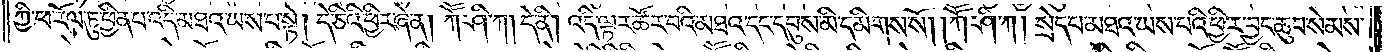ཀྱི་ཕ་རོལ་ཏུ་ཕྱིན་པ་འདི་མཐའ་ཡས་པ་སྟེ། དེ་ཅིའི་ཕྱིར་ཞེ་ན། ཀཽ་ཤི་ཀ། དེ་ནི། འདི་ལྟར་ཚོར་བའི་མཐའ་དང་དབུས་མི་དམིགས་སོ། །ཀཽ་ཤི་ཀ། སྲེད་པ་མཐའ་ཡས་པའི་ཕྱིར་བྱང་ཆུབ་སེམས་
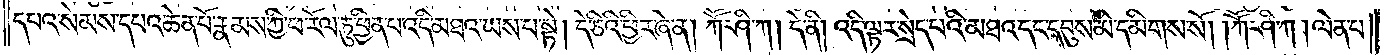དཔའ་སེམས་དཔའ་ཆེན་པོ་རྣམས་ཀྱི་ཕ་རོལ་ཏུ་ཕྱིན་པ་འདི་མཐའ་ཡས་པ་སྟེ། དེ་ཅིའི་ཕྱིར་ཞེ་ན། ཀཽ་ཤི་ཀ། དེ་ནི། འདི་ལྟར་སྲེད་པའི་མཐའ་དང་དབུས་མི་དམིགས་སོ། །ཀཽ་ཤི་ཀ། ལེན་པ་
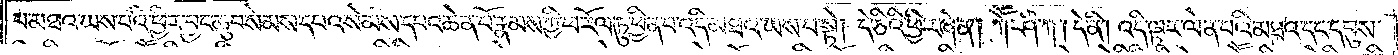པ་མཐའ་ཡས་པའི་ཕྱིར་བྱང་ཆུབ་སེམས་དཔའ་སེམས་དཔའ་ཆེན་པོ་རྣམས་ཀྱི་ཕ་རོལ་ཏུ་ཕྱིན་པ་འདི་མཐའ་ཡས་པ་སྟེ། དེ་ཅིའི་ཕྱིར་ཞེ་ན། ཀཽ་ཤི་ཀ། དེ་ནི། འདི་ལྟར་ལེན་པའི་མཐའ་དང་དབུས་
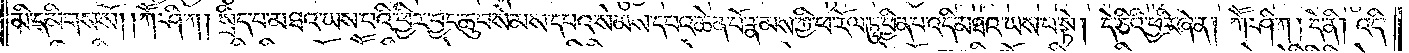མི་དམིགས་སོ། །ཀཽ་ཤི་ཀ། སྲིད་པ་མཐའ་ཡས་པའི་ཕྱིར་བྱང་ཆུབ་སེམས་དཔའ་སེམས་དཔའ་ཆེན་པོ་རྣམས་ཀྱི་ཕ་རོལ་ཏུ་ཕྱིན་པ་འདི་མཐའ་ཡས་པ་སྟེ། དེ་ཅིའི་ཕྱིར་ཞེ་ན། ཀཽ་ཤི་ཀ། དེ་ནི། འདི་
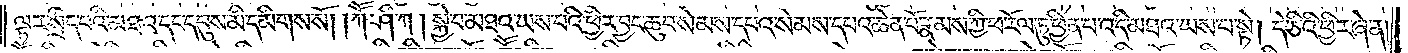ལྟར་སྲིད་པའི་མཐའ་དང་དབུས་མི་དམིགས་སོ། །ཀཽ་ཤི་ཀ། སྐྱེ་བ་མཐའ་ཡས་པའི་ཕྱིར་བྱང་ཆུབ་སེམས་དཔའ་སེམས་དཔའ་ཆེན་པོ་རྣམས་ཀྱི་ཕ་རོལ་ཏུ་ཕྱིན་པ་འདི་མཐའ་ཡས་པ་སྟེ། དེ་ཅིའི་ཕྱིར་ཞེ་ན།
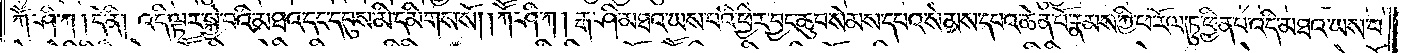ཀཽ་ཤི་ཀ། དེ་ནི། འདི་ལྟར་སྐྱེ་བའི་མཐའ་དང་དབུས་མི་དམིགས་སོ། །ཀཽ་ཤི་ཀ། རྒ་ཤི་མཐའ་ཡས་པའི་ཕྱིར་བྱང་ཆུབ་སེམས་དཔའ་སེམས་དཔའ་ཆེན་པོ་རྣམས་ཀྱི་ཕ་རོལ་ཏུ་ཕྱིན་པ་འདི་མཐའ་ཡས་པ་
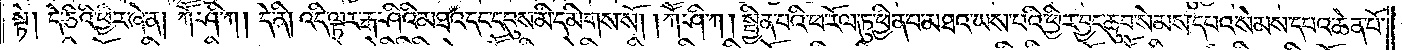སྟེ། དེ་ཅིའི་ཕྱིར་ཞེ་ན། ཀཽ་ཤི་ཀ། དེ་ནི། འདི་ལྟར་རྒ་ཤིའི་མཐའ་དང་དབུས་མི་དམིགས་སོ། །ཀཽ་ཤི་ཀ། སྦྱིན་པའི་ཕ་རོལ་ཏུ་ཕྱིན་པ་མཐའ་ཡས་པའི་ཕྱིར་བྱང་ཆུབ་སེམས་དཔའ་སེམས་དཔའ་ཆེན་པོ་
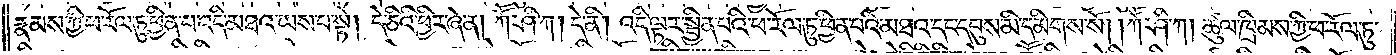རྣམས་ཀྱི་ཕ་རོལ་ཏུ་ཕྱིན་པ་འདི་མཐའ་ཡས་པ་སྟེ། དེ་ཅིའི་ཕྱིར་ཞེ་ན། ཀཽ་ཤི་ཀ། དེ་ནི། འདི་ལྟར་སྦྱིན་པའི་ཕ་རོལ་ཏུ་ཕྱིན་པའི་མཐའ་དང་དབུས་མི་དམིགས་སོ། །ཀཽ་ཤི་ཀ། ཚུལ་ཁྲིམས་ཀྱི་ཕ་རོལ་ཏུ་
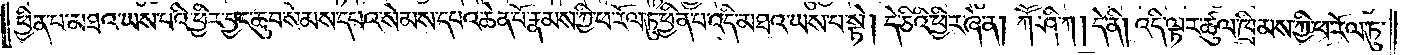ཕྱིན་པ་མཐའ་ཡས་པའི་ཕྱིར་བྱང་ཆུབ་སེམས་དཔའ་སེམས་དཔའ་ཆེན་པོ་རྣམས་ཀྱི་ཕ་རོལ་ཏུ་ཕྱིན་པ་འདི་མཐའ་ཡས་པ་སྟེ། དེ་ཅིའི་ཕྱིར་ཞེ་ན། ཀཽ་ཤི་ཀ། དེ་ནི། འདི་ལྟར་ཚུལ་ཁྲིམས་ཀྱི་ཕ་རོལ་ཏུ་
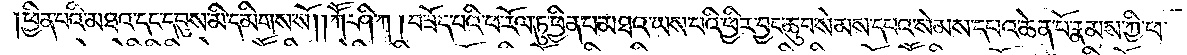ཕྱིན་པའི་མཐའ་དང་དབུས་མི་དམིགས་སོ། །ཀཽ་ཤི་ཀ། བཟོད་པའི་ཕ་རོལ་ཏུ་ཕྱིན་པ་མཐའ་ཡས་པའི་ཕྱིར་བྱང་ཆུབ་སེམས་དཔའ་སེམས་དཔའ་ཆེན་པོ་རྣམས་ཀྱི་ཕ་
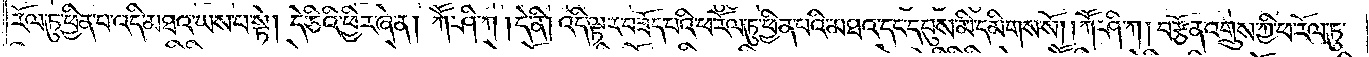རོལ་ཏུ་ཕྱིན་པ་འདི་མཐའ་ཡས་པ་སྟེ། དེ་ཅིའི་ཕྱིར་ཞེ་ན། ཀཽ་ཤི་ཀ། དེ་ནི། འདི་ལྟར་བཟོད་པའི་ཕ་རོལ་ཏུ་ཕྱིན་པའི་མཐའ་དང་དབུས་མི་དམིགས་སོ། །ཀཽ་ཤི་ཀ། བརྩོན་འགྲུས་ཀྱི་ཕ་རོལ་ཏུ་
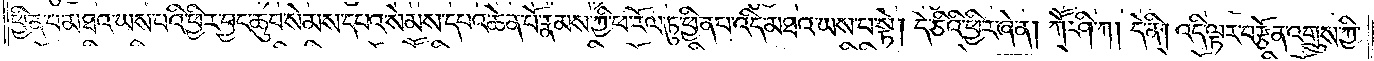ཕྱིན་པ་མཐའ་ཡས་པའི་ཕྱིར་བྱང་ཆུབ་སེམས་དཔའ་སེམས་དཔའ་ཆེན་པོ་རྣམས་ཀྱི་ཕ་རོལ་ཏུ་ཕྱིན་པ་འདི་མཐའ་ཡས་པ་སྟེ། དེ་ཅིའི་ཕྱིར་ཞེ་ན། ཀཽ་ཤི་ཀ། དེ་ནི། འདི་ལྟར་བརྩོན་འགྲུས་ཀྱི་
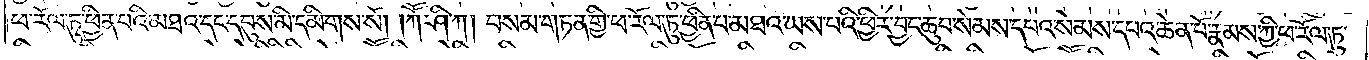ཕ་རོལ་ཏུ་ཕྱིན་པའི་མཐའ་དང་དབུས་མི་དམིགས་སོ། །ཀཽ་ཤི་ཀ། བསམ་གཏན་གྱི་ཕ་རོལ་ཏུ་ཕྱིན་པ་མཐའ་ཡས་པའི་ཕྱིར་བྱང་ཆུབ་སེམས་དཔའ་སེམས་དཔའ་ཆེན་པོ་རྣམས་ཀྱི་ཕ་རོལ་ཏུ་
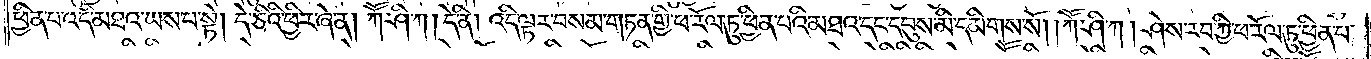ཕྱིན་པ་འདི་མཐའ་ཡས་པ་སྟེ། དེ་ཅིའི་ཕྱིར་ཞེ་ན། ཀཽ་ཤི་ཀ། དེ་ནི། འདི་ལྟར་བསམ་གཏན་གྱི་ཕ་རོལ་ཏུ་ཕྱིན་པའི་མཐའ་དང་དབུས་མི་དམིགས་སོ། །ཀཽ་ཤི་ཀ། ཤེས་རབ་ཀྱི་ཕ་རོལ་ཏུ་ཕྱིན་པ་
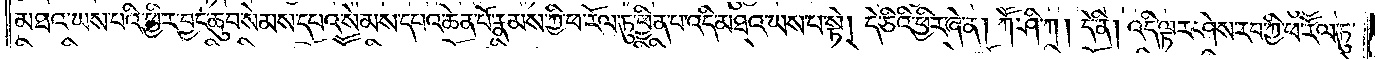མཐའ་ཡས་པའི་ཕྱིར་བྱང་ཆུབ་སེམས་དཔའ་སེམས་དཔའ་ཆེན་པོ་རྣམས་ཀྱི་ཕ་རོལ་ཏུ་ཕྱིན་པ་འདི་མཐའ་ཡས་པ་སྟེ། དེ་ཅིའི་ཕྱིར་ཞེ་ན། ཀཽ་ཤི་ཀ། དེ་ནི། འདི་ལྟར་ཤེས་རབ་ཀྱི་ཕ་རོལ་ཏུ་
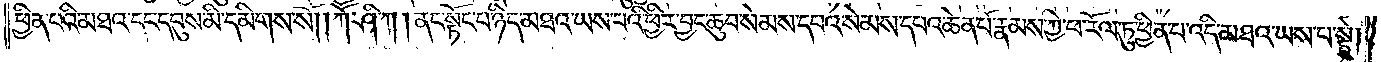ཕྱིན་པའི་མཐའ་དང་དབུས་མི་དམིགས་སོ། །ཀཽ་ཤི་ཀ། ནང་སྟོང་པ་ཉིད་མཐའ་ཡས་པའི་ཕྱིར་བྱང་ཆུབ་སེམས་དཔའ་སེམས་དཔའ་ཆེན་པོ་རྣམས་ཀྱི་ཕ་རོལ་ཏུ་ཕྱིན་པ་འདི་མཐའ་ཡས་པ་སྟེ།
